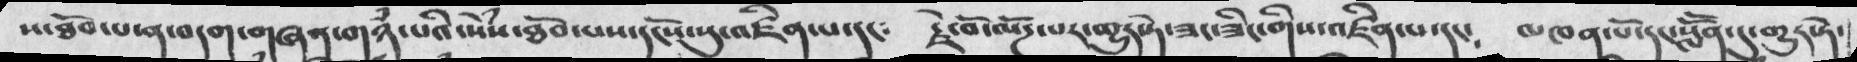ས་ཐོབ་པ་ན་བདག་གཞན་གཉཾ་པའི་སེཾས་ཐོབ་པས་དངོས་སུ་འཛིན་པ་།།  རྗེ་བོ་ལོཌ་པར་གྱུར་ཏེ་ཟང་ཟིང་གིས་འཛིན་པ་དང༴     མཁན་པོ་དང་སློོན་དུ་གྱུར་ཏེ་
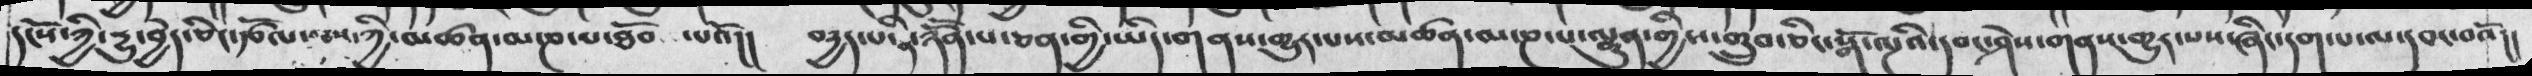དངོས་ཀྱི་དྱུག་བྱེད་ཅིང་རྩོལ་བཅས་ཀྱི་མཚན་མ་ཎ་པ་ཐོབ་པའོ།།  བདྱད་པོན་ཉོོན་པ་ཅན་གྱི་ཡིད་གནས་གྱུར་པས་མཚན་མ་ཎ་པ་ལྷུན་གྱིས་གྲུབ་ཅིང་སྒོ་ལྔའི་དབང་ཤེས་གནས་གྱུར་པས་ཞིང་དག་པ་ལ་དབང་བའོ།།
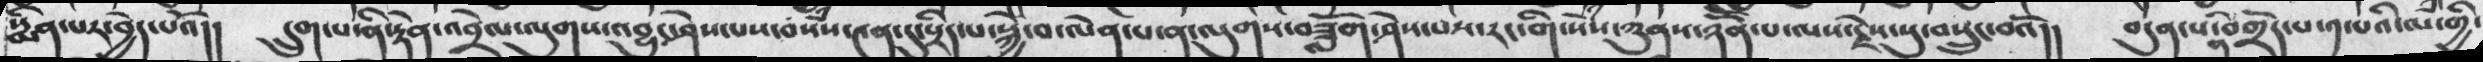སྨིན་པར་བྱེད་པའོ།།  དྲུག་པ་ནི་རྟེན་འབྲེལ་ལུགས་འབྱུང་ཤེས་པས་བསཾས་༤ན་དུ་སྲིད་པ་སྐྱེ་བ་ལེན་པ་ན་ལུགས་བཟློག་ཤེས་པར་རང་གི་སེཾས་ཀུནས་ཉོོན་པ་ལས་རྗེས་སུ་བསྲུང་བའོ།།   བདུན་སའི་བགྲོད་པ་༡་པའི་ལཾ་གྱི་
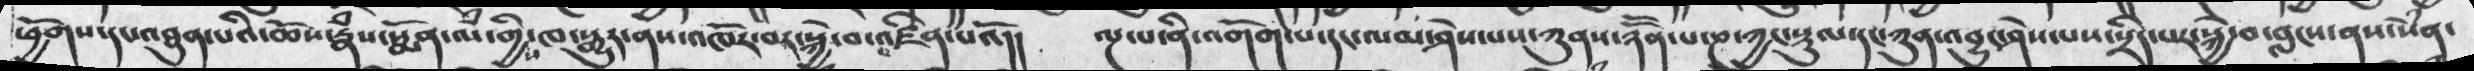ཕྱོགས་དང་འཐུན་པའི་ཆོས་རྣཾས་སྨོན་ལམ་གྱིས་ཁ་སྒྱུར་ནས་འཁོར་བར་སྐྱེ་བས་འཛིན་པའོ།།  ལྔ་པ་ནི་འགོག་པ་དང་ལམ་ཤེས་པས་ཀུནས་ཉོོན་པ་ཎ་ཀྱང་སྡུལ་དང་ཀུན་འབྱུང་ཤེས་པས་སྲིད་པར་སྐྱེ་བ་བླངས་ནས་སེཾན་
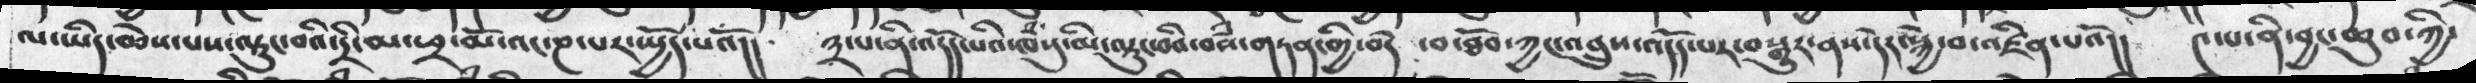ལ་ཡིད་ཆེས་པས་་ལྟུང་བའི་དྲི་མ་ཕྲ་མོ་འང་ཎ་པར་ཡྱོད་པའོ།།  ༣་པ་ནི་འདོད་པའི་ཁཾསུ་མི་ལྟུང་བའི་བསཾ་གཏན་གྱི་བདེ་བ་ཐོབ་ཀྱང་འབྲུས་འདོད་པར་བསྒྱུར་ནས་དེར་སྐྱེ་བ་འཛིན་པའོ།།  ༤་པ་ནི་བྱང་ཆུབ་ཀྱི་
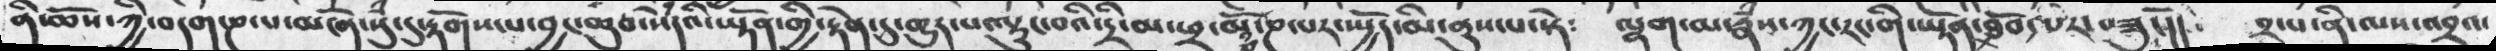ནི་ཆོས་ཀྱི་བདག་ཎ་པ་མངོན་སུཾ་དུ་རྟོགས་པ་བྱང་ཆུབ་སེཾདའི་ཡྟོན་གྱི་རྟེན་དུ་གྱུར་པ་ལྟུང་བའི་དྲི་མ་ཕྲ་མོ་ཎ་པར་སྤྱོད་མི་ནུས་པ་སྟེ༴   ལྷག་མ་རྣཾས་ཀྱང་རང་གི་ཡྟོན་ཐོབ་པར་བཟུངོ།།   ༢་པ་ནི་ལས་འབྲའ་
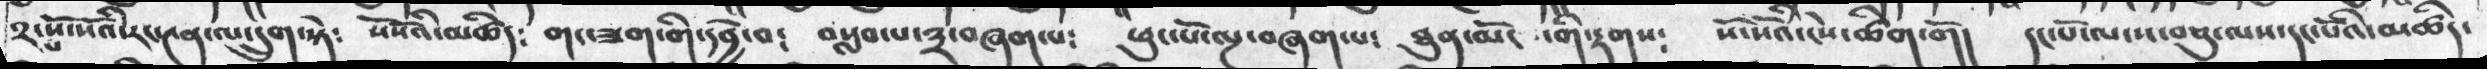༢་པ་སོ་སོའི་རང་༤ན་ལ་དྲུག་སྟེ༴   སོ་སོའི་མཚིད༴   གང་ཟག་གི་དབྱེ་བ༴ བསླབ་པ་༣་བཞག་པ༴ ཕུང་པོ་ལྔ་བཞག་པ༴  ཐུན་མོང་གི་རྟགས༴    སོ་སོའི་དེས་ཚིག་གོ།   དང་པོ་ལ་ས་བཅུ་ལས་དང་པོའི་མཚིད་
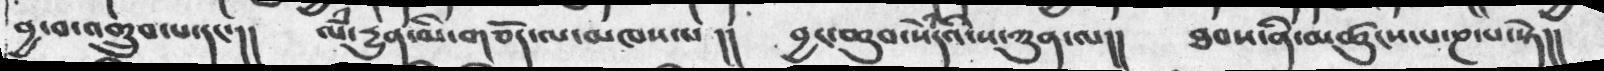བྱ་བ་འགྲུབ་པ་དང་།།     ལཾ་རྱུན་མི་གཅོད་ལ་མཁས་པ །།   བྱང་ཆུབ་སེཾདའི་ས་ཀུན་ལ།།    ཐབས་ནི་མཚུངས་པ་ཎ་པ་སྟེ།།
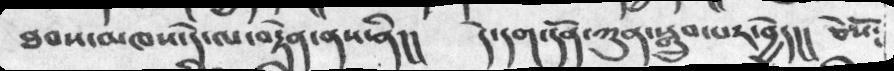ཐབས་མཁས་དེ་ལ་བརྟེན་ནས་ནི།།     དེ་དག་དོན་ཀུན་སྒྲུབ་པར་བྱེད།།     ཅེསོ༴
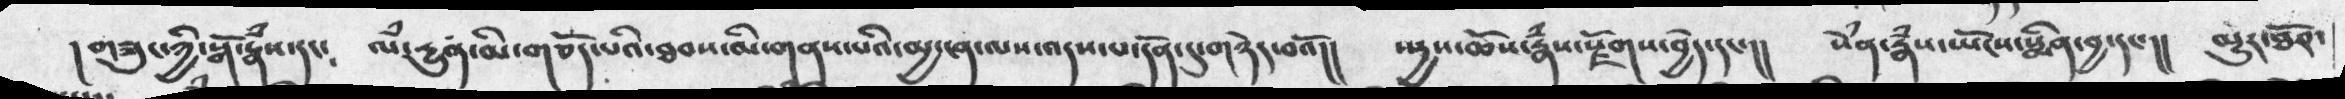གཟུང་ཀྱི་སྒོ་རྣཾས་དང༴    ལཾ་རྱུན་མི་གཅོད་པའི་ཐབས་མི་གནས་པའི་མྱ་ངན་ལས་འདས་པ་དོན་དུ་གཉེར་བའོ།།   སདྱས་ཆོས་རྣཾས་སྫོགས་བྱེད་དང་།།  སེཾན་རྣཾས་ཡོངས་སྨིན་བྱ་དང་།།   མྱུར་ཐོབ་
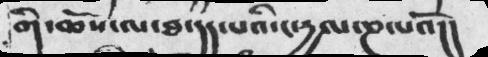གི་ཆོས་ལ་ཐ་དད་པའི་ང་དྱལ་ཎ་པའོ།།
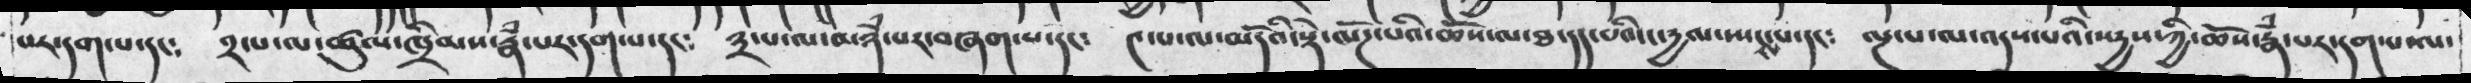པར་དག་པ་དང༴  ༢་པ་ཚུལ་ཁྲིམས་རྣཾ་པར་དག་པ་དང༴    ༣་པ་ལ་མཉཾ་པར་བཞག་པ་དང༴   ༤་པ་ལ་མདོའི་སྡེ་ལོཌ་པའི་ཆོས་ལ་ཐ་དད་པའི་ང་རྱལ་སྤངས་པ་དང༴  ལྔ་པ་ལ་འདས་པའི་སརྱས་ཀྱི་ཆོས་རྣཾ་པར་དག་པ་ལ་
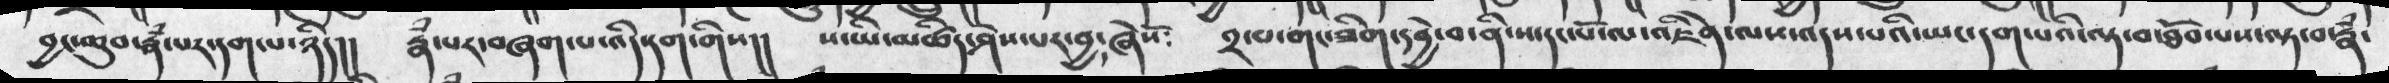བྱང་ཆུབ་རྣཾ་པར་དག་པ་ཉིད།།   རྣཾ་པར་བཞག་པ་འདི་དག་གིས།།   ས་ཡི་མཚིད་ཤེས་པར་བྱ་ཞེསོ༴    ༢་པ་གང་ཟིག་དབྱེ་བ་ནི་ས་དང་པོ་ལ་འཇིེན་ལས་འདས་པའི་ཡང་དག་པའི་ལྟ་བ་ཐོབ་པས་ལྟ་བ་རྣཾ་
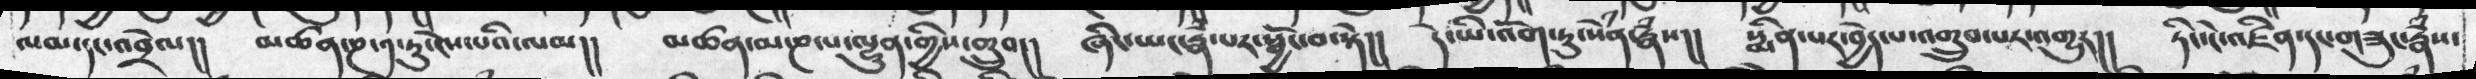ལམ་དང་འབྲེལ།།   མཚན་ཎ་༡་ཏུ་ངེས་པའི་ལམ།།  མཚན་མ་ཎ་པ་ལྷུན་གྱིས་གྲུབ།།   ཞིང་ཡང་རྣཾ་པར་སྦྱོང་བ་སྟེ།།  དེ་ཡི་འོག་ཏུ་སེཾན་རྣཾས།།   སྨིན་པར་བྱེད་པ་འགྲུབ་པར་འགྱུར།།   ཏིང་ངེ་འཛིན་དང་གཟུང་རྣཾས་
